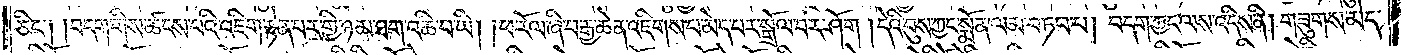ཅིང༌། །བདག་གིས་ཚངས་པའི་འཇིག་རྟེན་བར་གྱི་ཉམ་ཐག་འཆི་བ་ཡི། །ཕ་རོལ་ཞི་བ་རྒྱ་ཆེན་འཇིགས་པ་མེད་པར་སྒྲོལ་བར་ཤོག །དེའི་བུས་ཀྱང་སྨོན་ལམ་བཏབ་པ། བདག་ཀྱང་ལས་འདིས་ནི། གཟུགས་མེད་
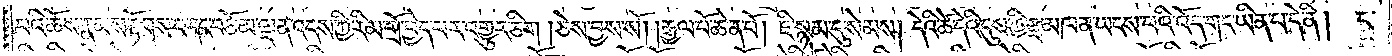པའི་ཆོས་རྣམས་རྟོགས་པ་དང་བཅོམ་ལྡན་འདས་ཀྱི་རིམ་གྲོ་བྱེད་པར་འགྱུར་ཅིག །ཅེས་བྱས་སོ། །རྒྱལ་པོ་ཆེན་པོ། ཇི་སྙམ་དུ་སེམས། དེའི་ཚེ་དེའི་དུས་ཀྱི་རྫ་མཁན་ཡངས་པའི་འོད་གང་ཡིན་པ་དེ་ནི། ང་
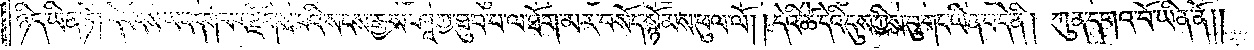ཉིད་ཡིན་ཏེ། དེར་ངས་ཡང་དག་པར་རྫོགས་པའི་སངས་རྒྱས་ཤཱཀྱ་ཐུབ་པ་ལ་ཐོག་མར་བསོད་སྙོམས་ཕུལ་ལོ། །དེའི་ཚེ་དེའི་དུས་ཀྱིས་བུ་གང་ཡིན་པ་དེ་ནི། ཀུན་དགའ་བོ་ཡིན་ནོ༎
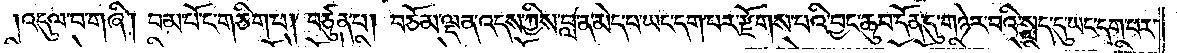འདུལ་བ་གཞི། བམ་པོ་ང་གཅིག་པ། བཙུན་པ། བཅོམ་ལྡན་འདས་ཀྱིས་བླ་ན་མེད་པ་ཡང་དག་པར་རྫོགས་པའི་བྱང་ཆུབ་དོན་དུ་གཉེར་བའི་སླད་དུ་ཡང་དག་པར་
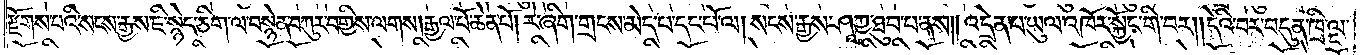རྫོགས་པའི་སངས་རྒྱས་ཇི་སྙེད་ཅིག་ལ་བསྙེན་བཀུར་བགྱིས་ལགས། རྒྱལ་པོ་ཆེན་པོ། རེ་ཞིག་གྲངས་མེད་པ་དང་པོ་ལ། སངས་རྒྱས་ཤཱཀྱ་ཐུབ་པ་ནས། །འདྲེན་པ་ཡུལ་འཁོར་སྐྱོང་གི་བར། །དེའི་བར་བདུན་ཁྲི་ལྔ་
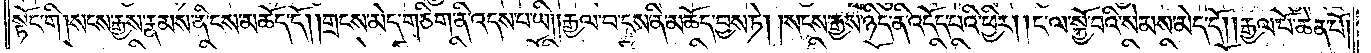སྟོང་གི །སངས་རྒྱས་རྣམས་ནི་ངས་མཆོད་དོ། །གྲངས་མེད་གཅིག་ནི་འདས་པ་ཡི། །རྒྱལ་བ་ངས་ནི་མཆོད་བྱས་ཏེ། །སངས་རྒྱས་ཉིད་ནི་འདོད་པའི་ཕྱིར། །ང་ལ་སྐྱོ་བའི་སེམས་མེད་དོ། །རྒྱལ་པོ་ཆེན་པོ།
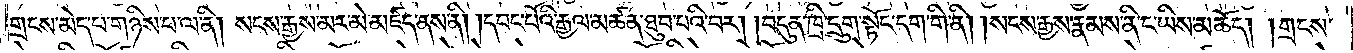གྲངས་མེད་པ་གཉིས་པ་ལ་ནི། སངས་རྒྱས་མར་མེ་མཛད་ནས་ནི། །དབང་པོའི་རྒྱལ་མཚན་ཐུབ་པའི་བར། །བདུན་ཁྲི་དྲུག་སྟོང་དག་གི་ནི། །སངས་རྒྱས་རྣམས་ནི་ང་ཡིས་མཆོད། །གྲངས་
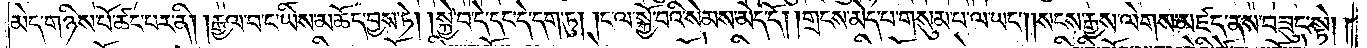མེད་གཉིས་པོ་ཚང་པར་ནི། །རྒྱལ་བ་ང་ཡིས་མཆོད་བྱས་ཏེ། སྐྱེ་བ་དེ་དང་དེ་དག་ཏུ། །ང་ལ་སྐྱོ་བའི་སེམས་མེད་དོ། །གྲངས་མེད་པ་གསུམ་པ་ལ་ཡང༌། །སངས་རྒྱས་ལེགས་མཛད་ནས་བཟུང་སྟེ། །
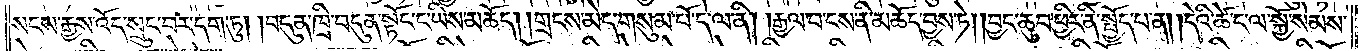སངས་རྒྱས་འོད་སྲུང་བར་དག་ཏུ། །བདུན་ཁྲི་བདུན་སྟོང་ང་ཡིས་མཆོད། །གྲངས་མེད་གསུམ་པོ་དེ་ལ་ནི། །རྒྱལ་བ་ངས་ནི་མཆོད་བྱས་ཏེ། །བྱང་ཆུབ་ཕྱིར་ནི་སྤྱོད་པ་ན། །དེའི་ཚེ་ང་ལ་སྐྱོ་སེམས་
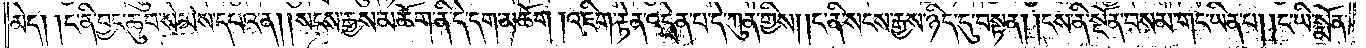མེད། །ང་ནི་བྱང་ཆུབ་སེམས་དཔའ་ན། །སངས་རྒྱས་མཆོག་ནི་དེ་དག་མཆོག །འཇིག་རྟེན་འདྲེན་པ་དེ་ཀུན་གྱིས། །ང་ནི་སངས་རྒྱས་ཉིད་དུ་བསྟན། །ངས་ནི་སྔོན་བསམ་གང་ཡིན་པ། །ང་ཡི་སྨོན་
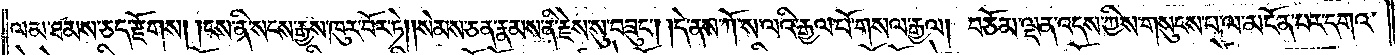ལམ་ཐམས་ཅད་རྫོགས། །ངས་ནི་སངས་རྒྱས་ཁུར་བོར་ཏེ། །སེམས་ཅན་རྣམས་ནི་རྗེས་སུ་བཟུང༌། །དེ་ནས་ཀོ་ས་ལའི་རྒྱལ་པོ་གསལ་རྒྱལ། བཅོམ་ལྡན་འདས་ཀྱིས་གསུངས་པ་ལ་མངོན་པར་དགའ་
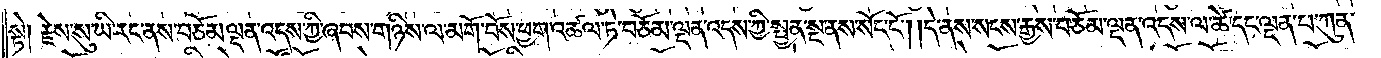སྟེ། རྗེས་སུ་ཡི་རང་ནས་བཅོམ་ལྡན་འདས་ཀྱི་ཞབས་གཉིས་ལ་མགོ་བོས་ཕྱག་འཚལ་ཏེ་བཅོམ་ལྡན་འདས་ཀྱིས་སྤྱན་སྔ་ནས་སོང་ངོ༌། །དེ་ནས་སངས་རྒྱས་བཅོམ་ལྡན་འདས་ལ་ཚེ་དང་ལྡན་པ་ཀུན་
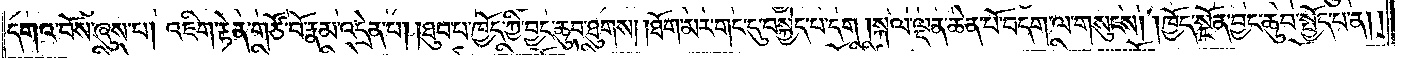དགའ་བོས་ཞུས་པ། འཇིག་རྟེན་གཙོ་བོ་རྣམ་འདྲེན་པ། །ཐུབ་པ་ཁྱོད་ཀྱི་བྱང་ཆུབ་ཐུགས། །ཐོག་མར་གང་དུ་བསྐྱེད་པ་དག །སྐལ་ལྡན་ཆེན་པོ་བདག་ལ་གསུངས། །ཁྱོད་སྔོན་བྱང་ཆུབ་སྤྱོད་པ་ན། །
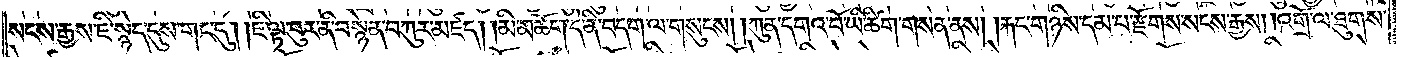སངས་རྒྱས་ཇི་སྙེད་དུས་གང་དུ། །ཇི་ལྟ་བུར་ནི་བསྙེན་བཀུར་མཛད། །མི་མཆོག་དེ་ནི་བདག་ལ་གསུངས། །ཀུན་དགའ་བོ་ཡི་ཚིག་གསན་ནས། །རྐང་གཉིས་དམ་པ་རྫོགས་སངས་རྒྱས། །འགྲོ་ལ་ཐུགས་
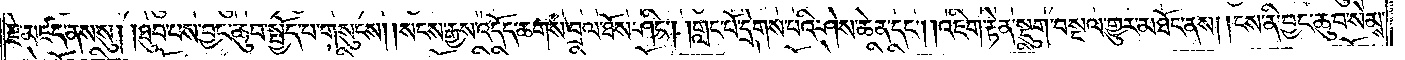རྗེ་མཛད་ནས་སུ། །ཐུབ་པས་བྱང་ཆུབ་སྤྱོད་པ་གསུངས། །སངས་རྒྱས་འདོད་ཆགས་བྲལ་ཐོས་ཤིང༌། །གླང་པོ་དྲེགས་པའི་ཤེས་ཆེན་དང༌། །འཇིག་རྟེན་སྡུག་བསྔལ་གྱུར་མཐོང་ནས། །ངས་ནི་བྱང་ཆུབ་སེམས་
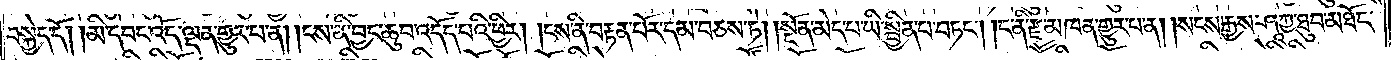བསྐྱེད་དོ། །མི་དབང་འོད་ལྡན་གྱུར་པ་ན། ངས་ནི་བྱང་ཆུབ་འདོད་པའི་ཕྱིར། །ངས་ནི་བརྟན་པོར་དམ་བཅས་ཏེ། །སྔོན་མེད་པ་ཡི་སྦྱིན་པ་བཏང༌། །ང་ནི་རྫ་མཁན་གྱུར་པ་ན། སངས་རྒྱས་ཤཱཀྱ་ཐུབ་མཐོང་
